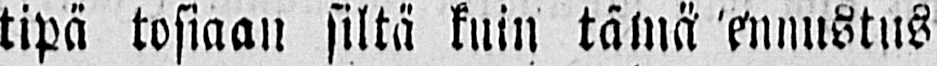tipä tosiaan siltä kuin tämä ennustus
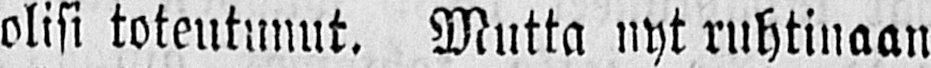olisi toteutunut. Mutta nyt ruhtinaan
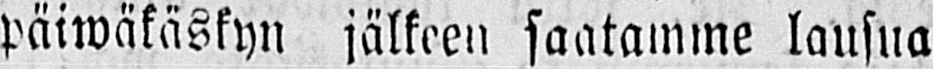päiwäkäskyn jälkeen saatamme lausua
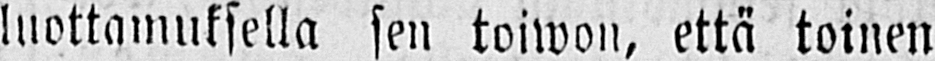luottamuksella sen toiwon, että toinen
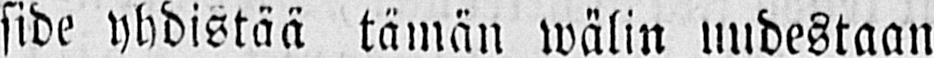side yhdistää tämän wälin uudestaan
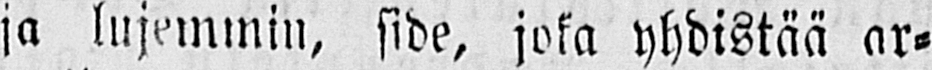ja lujemmin, side, joka yhdistää ar-
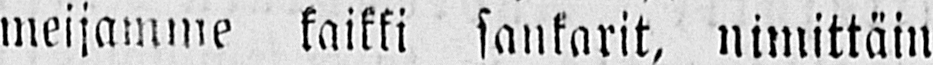meijamme kaikki sankarit, nimittäin
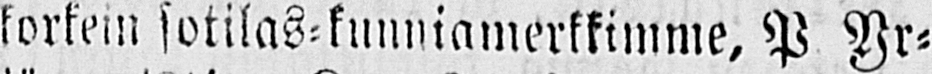korkein sotilas-kunniamerkkimme, P Yr-
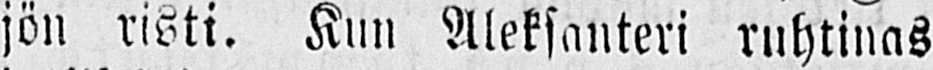jön risti. Kun Aleksanteri ruhtinas
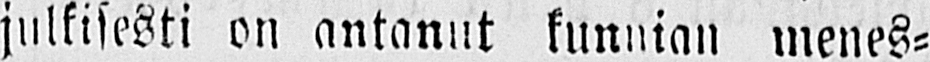julkisesti on antanut kunnian menes-
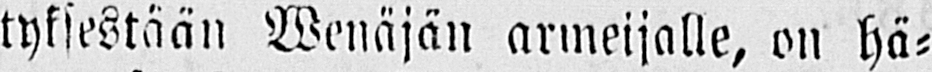tyksestään Wenäjän armeijalle, on hä-
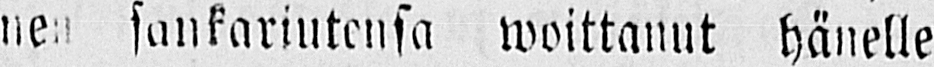nen sankariutensa woittanut hänelle
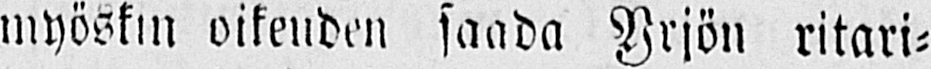myöskin oikeuden saada Yrjön ritari-
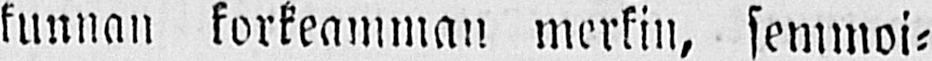kunnan korkeamman merkin, semmoi-
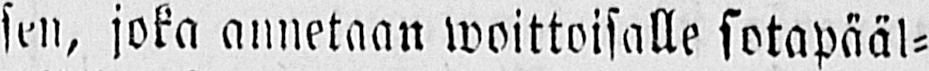sen, joka annetaan woittoisalle sotapääl-
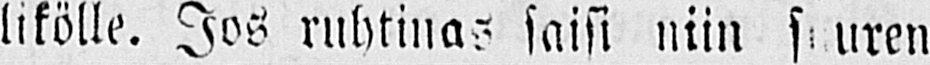likölle. Jos ruhtinas saisi niin suuren
